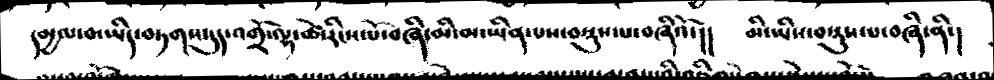དམྱལ་བ་ཡིད་བཏགས་དུད་འགྲོ་ལྷ་ཚེ་རིངས་པོ་བཞི་མི་མ་ཡིན་པས་བསྡུས་པ་བཞིའོ་།།  མི་ཡིས་བསྡུས་པ་བཞིན་ནི་།
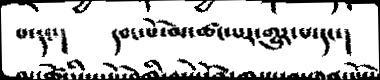པ་དང་།   དབང་པོ་མ་ཚང་པར་གྱུར་པ་དང་།
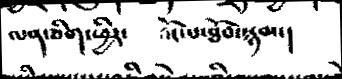ལན་ཅིག་ཕྱིར་   འོང་པ་ཐོབ་སྙམ་།
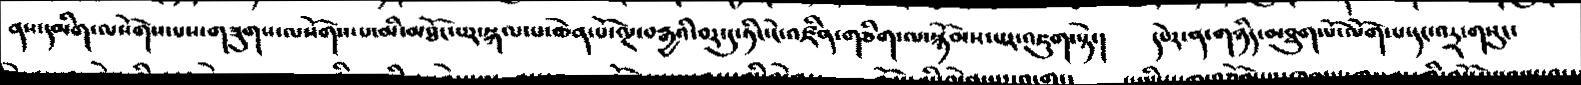ནས་དམིག་ལསོགས་པས་གཟུགས་ལསོགས་པ་མི་མཐོང་པར་སྐལ་པ་ཆེན་པོ་ལྔ་བརྒྱའི་བར་དུ་ཏིང་ངེ་འཛིན་གཅིག་ལ་སྙོམས་པར་འཇུག་སྟེ་།  དཔེར་ན་གཉིད་མཐུག་པོ་ལོག་པ་དང་འདྲ་གསུང་
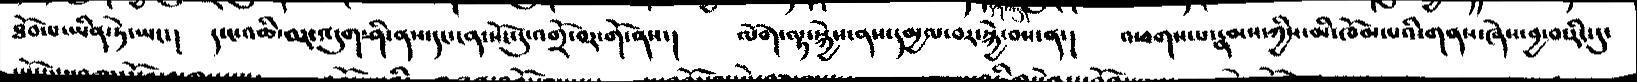ཐོབ་པ་ཡིན་ཏེ་ཡང་།  ད་ང་འཆི་བར་འདུག་ཤི་ནས་དང་ན་སོང་དུ་འགྲོ་བར་གོ་ནས་།  ལོག་ལྟ་སྐྱེས་ནས་དམྱལ་བར་སྐྱེ་བས་ན་།  འཕགས་པ་རྣམས་ཀྱིས་མི་ཁོམ་པའི་གནས་ཞེས་བྱ་བ་རིང་དུ་
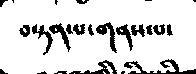བསྟན་པ་གནས་པ་
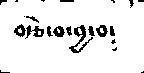བརྩེ་བ་བྱ་བ༴
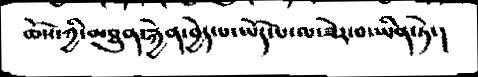ཆོས་ཀྱི་མཐུན་རྐྱེན་བྱེད་པ་ཡོད་པ་ལ་ཟེར་བ་ཡིན་ཏེ་།
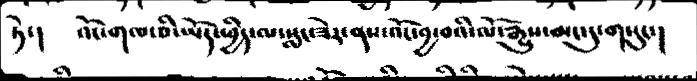ཏེ་།  འོང་གལ་ཅི་ཡོད་ཕྱིད་ལ་སླང་ཟེར་ནས་འོང་བྱ་བའི་ལོ་རྒྱུས་མང་དུ་གསུང་།
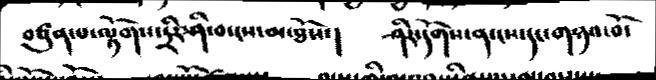བཙུན་པ་ལྟོགས་དྲིར་ཤི་བ་ངས་མ་ཐོས་།  ཤིར་དོགས་ན་ངས་དང་གཉའ་བོ་
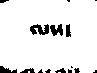ལས་
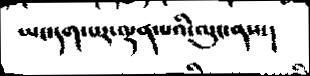ཡང་དག་པར་ལྷན་པའི་ལུང་ནས་།
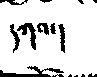དཀའ་།
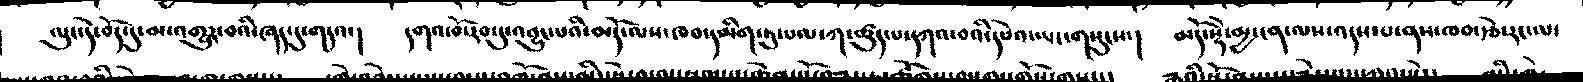ལུང་དེ་བོད་དུ་མ་འགྱུར་བའི་ཞད་དུ་གདའ་།  དགའ་བོ་རབ་དུ་འབྱུང་པའི་མདོ་ལས་ཁབ་དམིག་ཏུ་པལ་ཀ་ཚུད་པ་དཀའ་བའི་དཔེའ་ཡང་གསུངས་།  མདེ་སྡེ་མྱ་ངན་ལས་འདས་པ་ནས་ཁབ་རྩེ་རང་ལ་
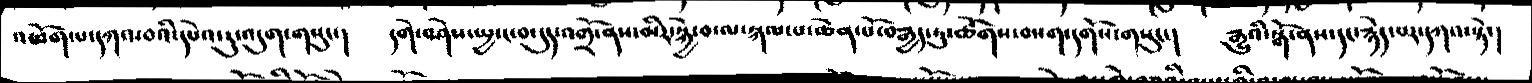འཕོག་པ་དཀའ་བའི་དཔེའ་དུ་འདུག་གསུང་།   དགེ་བཤེས་ཡྱ་ང་བ་དུད་འགྲོ་ནས་མིར་སྐྱེ་བ་ལ་སྐལ་པ་ཆེན་པོ་བརྒྱད་ཏུ་ཚོགས་བསགས་དགོས་གསུང་།  རྒྱུའི་སྒོ་ནས་དང་རྙེད་པར་དཀའ་སྟེ་།
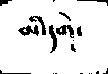མི་དགེ་
